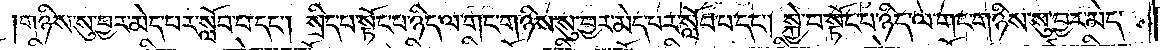གཉིས་སུ་བྱར་མེད་པར་སློབ་པ་དང༌། སྲིད་པ་སྟོང་པ་ཉིད་ལ་གང་གཉིས་སུ་བྱར་མེད་པར་སློབ་པ་དང༌། སྐྱེ་བ་སྟོང་པ་ཉིད་ལ་གང་གཉིས་སུ་བྱར་མེད་
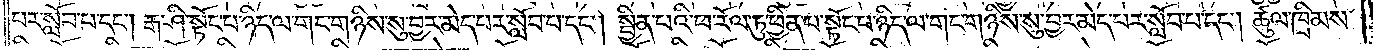པར་སློབ་པ་དང༌། རྒ་ཤི་སྟོང་པ་ཉིད་ལ་གང་གཉིས་སུ་བྱར་མེད་པར་སློབ་པ་དང༌། སྦྱིན་པའི་ཕ་རོལ་ཏུ་ཕྱིན་པ་སྟོང་པ་ཉིད་ལ་གང་གཉིས་སུ་བྱར་མེད་པར་སློབ་པ་དང༌། ཚུལ་ཁྲིམས་
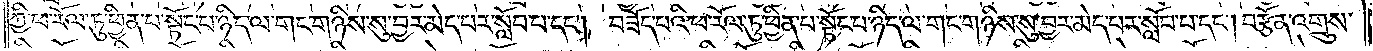ཀྱི་ཕ་རོལ་ཏུ་ཕྱིན་པ་སྟོང་པ་ཉིད་ལ་གང་གཉིས་སུ་བྱར་མེད་པར་སློབ་པ་དང༌། བཟོད་པའི་ཕ་རོལ་ཏུ་ཕྱིན་པ་སྟོང་པ་ཉིད་ལ་གང་གཉིས་སུ་བྱར་མེད་པར་སློབ་པ་དང༌། བརྩོན་འགྲུས་
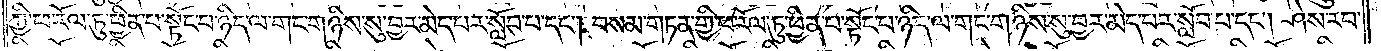ཀྱི་ཕ་རོལ་ཏུ་ཕྱིན་པ་སྟོང་པ་ཉིད་ལ་གང་གཉིས་སུ་བྱར་མེད་པར་སློབ་པ་དང༌། བསམ་གཏན་གྱི་ཕ་རོལ་ཏུ་ཕྱིན་པ་སྟོང་པ་ཉིད་ལ་གང་གཉིས་སུ་བྱར་མེད་པར་སློབ་པ་དང༌། ཤེས་རབ་
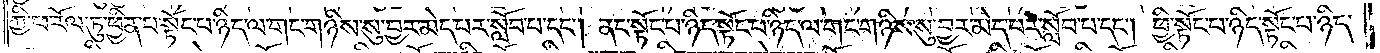ཀྱི་ཕ་རོལ་ཏུ་ཕྱིན་པ་སྟོང་པ་ཉིད་ལ་གང་གཉིས་སུ་བྱར་མེད་པར་སློབ་པ་དང༌། ནང་སྟོང་པ་ཉིད་སྟོང་པ་ཉིད་ལ་གང་གཉིས་སུ་བྱར་མེད་པར་སློབ་པ་དང༌། ཕྱི་སྟོང་པ་ཉིད་སྟོང་པ་ཉིད་
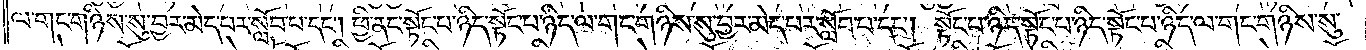ལ་གང་གཉིས་སུ་བྱར་མེད་པར་སློབ་པ་དང༌། ཕྱི་ནང་སྟོང་པ་ཉིད་སྟོང་པ་ཉིད་ལ་གང་གཉིས་སུ་བྱར་མེད་པར་སློབ་པ་དང༌། སྟོང་པ་ཉིད་སྟོང་པ་ཉིད་སྟོང་པ་ཉིད་ལ་གང་གཉིས་སུ་
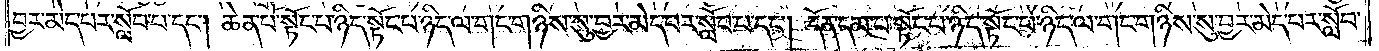བྱར་མེད་པར་སློབ་པ་དང༌། ཆེན་པོ་སྟོང་པ་ཉིད་སྟོང་པ་ཉིད་ལ་གང་གཉིས་སུ་བྱར་མེད་པར་སློབ་པ་དང༌། དོན་དམ་པ་སྟོང་པ་ཉིད་སྟོང་པ་ཉིད་ལ་གང་གཉིས་སུ་བྱར་མེད་པར་སློབ་
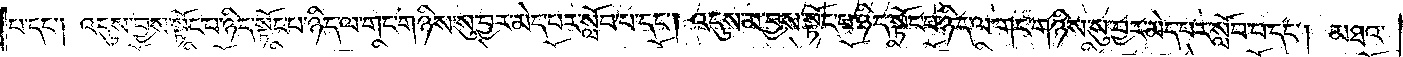པ་དང༌། འདུས་བྱས་སྟོང་པ་ཉིད་སྟོང་པ་ཉིད་ལ་གང་གཉིས་སུ་བྱར་མེད་པར་སློབ་པ་དང༌། འདུས་མ་བྱས་སྟོང་པ་ཉིད་སྟོང་པ་ཉིད་ལ་གང་གཉིས་སུ་བྱར་མེད་པར་སློབ་པ་དང༌། མཐའ་
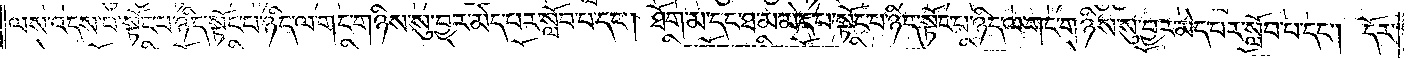ལས་འདས་པ་སྟོང་པ་ཉིད་སྟོང་པ་ཉིད་ལ་གང་གཉིས་སུ་བྱར་མེད་པར་སློབ་པ་དང༌། ཐོག་མ་དང་ཐ་མ་མེད་པ་སྟོང་པ་ཉིད་སྟོང་པ་ཉིད་ལ་གང་གཉིས་སུ་བྱར་མེད་པར་སློབ་པ་དང༌། དོར་
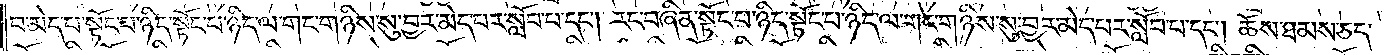བ་མེད་པ་སྟོང་པ་ཉིད་སྟོང་པ་ཉིད་ལ་གང་གཉིས་སུ་བྱར་མེད་པར་སློབ་པ་དང༌། རང་བཞིན་སྟོང་པ་ཉིད་སྟོང་པ་ཉིད་ལ་གང་གཉིས་སུ་བྱར་མེད་པར་སློབ་པ་དང༌། ཆོས་ཐམས་ཅད་
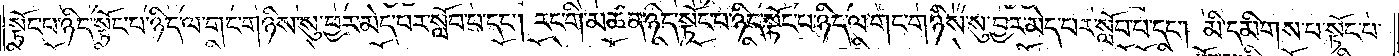སྟོང་པ་ཉིད་སྟོང་པ་ཉིད་ལ་གང་གཉིས་སུ་བྱར་མེད་པར་སློབ་པ་དང༌། རང་གི་མཚན་ཉིད་སྟོང་པ་ཉིད་སྟོང་པ་ཉིད་ལ་གང་གཉིས་སུ་བྱར་མེད་པར་སློབ་པ་དང༌། མི་དམིགས་པ་སྟོང་པ་
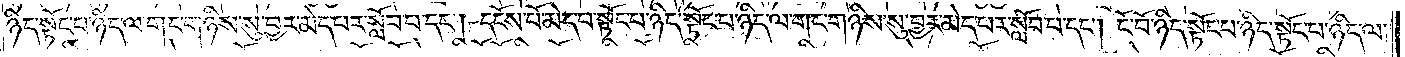ཉིད་སྟོང་པ་ཉིད་ལ་གང་གཉིས་སུ་བྱར་མེད་པར་སློབ་པ་དང༌། དངོས་པོ་མེད་པ་སྟོང་པ་ཉིད་སྟོང་པ་ཉིད་ལ་གང་གཉིས་སུ་བྱར་མེད་པར་སློབ་པ་དང༌། ངོ་བོ་ཉིད་སྟོང་པ་ཉིད་སྟོང་པ་ཉིད་ལ་
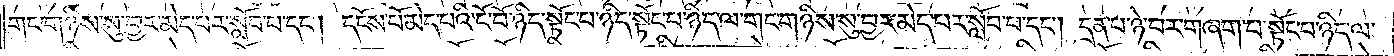གང་གཉིས་སུ་བྱར་མེད་པར་སློབ་པ་དང༌། དངོས་པོ་མེད་པའི་ངོ་བོ་ཉིད་སྟོང་པ་ཉིད་སྟོང་པ་ཉིད་ལ་གང་གཉིས་སུ་བྱར་མེད་པར་སློབ་པ་དང༌། དྲན་པ་ཉེ་བར་གཞག་པ་སྟོང་པ་ཉིད་ལ་
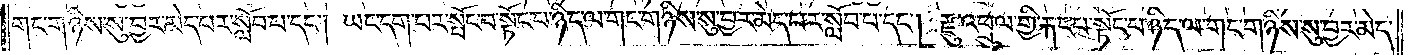གང་གཉིས་སུ་བྱར་མེད་པར་སློབ་པ་དང༌། ཡང་དག་པར་སྤང་བ་སྟོང་པ་ཉིད་ལ་གང་གཉིས་སུ་བྱར་མེད་པར་སློབ་པ་དང༌། རྫུ་འཕྲུལ་གྱི་རྐང་པ་སྟོང་པ་ཉིད་ལ་གང་གཉིས་སུ་བྱར་མེད་
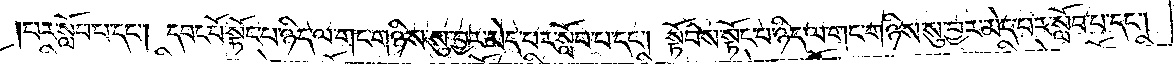པར་སློབ་པ་དང༌། དབང་པོ་སྟོང་པ་ཉིད་ལ་གང་གཉིས་སུ་བྱར་མེད་པར་སློབ་པ་དང༌། སྟོབས་སྟོང་པ་ཉིད་ལ་གང་གཉིས་སུ་བྱར་མེད་པར་སློབ་པ་དང༌།
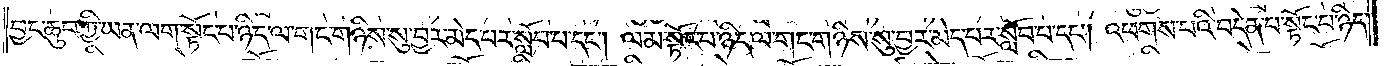བྱང་ཆུབ་ཀྱི་ཡན་ལག་སྟོང་པ་ཉིད་ལ་གང་གཉིས་སུ་བྱར་མེད་པར་སློབ་པ་དང༌། ལམ་སྟོང་པ་ཉིད་ལ་གང་གཉིས་སུ་བྱར་མེད་པར་སློབ་པ་དང༌། འཕགས་པའི་བདེན་པ་སྟོང་པ་ཉིད་
